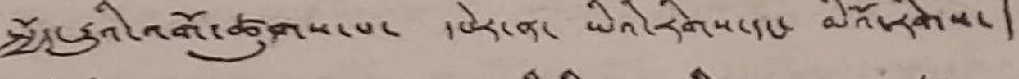སྤྱོད་རྒྱུའི་འགོ་ཚུགས་པ་ དཔེར་ན་ ཡིའི་རིགས་དང་ མིའོ་རིགས་།
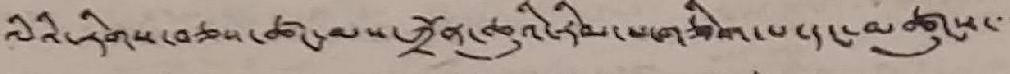ལིའི་རིགས་བཅས་ཚང་མས་ཀྲོན་ཆུའི་རིམ་པ་གཅིག་པ་དང་མཚུངས་་་
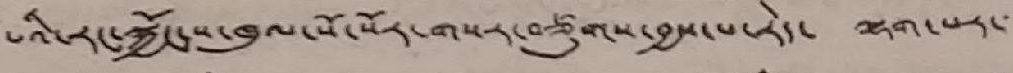པའི་རང་སྐྱོང་ས་ཁུལ་སོ་སོར་གསར་བཙུགས་བྱས་པ་རེད་ ལྷག་པར་་་
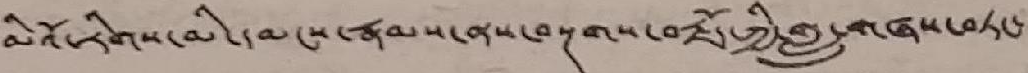མིའོ་རིགས་མི་དམངས་རྣམས་ནས་བསྔགས་བརྗོད་ཀྱི་གླུ་གཞས་བཏང་
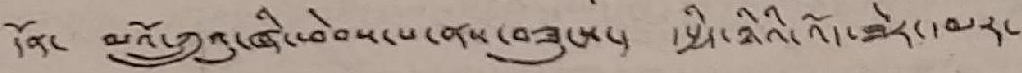དོན་ མའོ་ཀྲུའུ་ཞི་ཕེབས་པ་ནས་བཟུངས་། དཔྱིད་ཉིའི་འོད་ཟེར་དཔར་
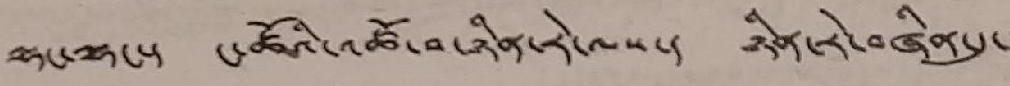ལྷང་ལྷང་། ང་ཚོའི་འཚོ་བ་ཉིན་རེ་ལས་། ཉིན་རེ་བཞིན་དུ་་
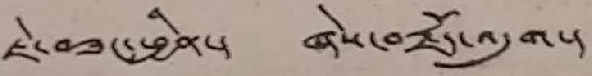ཇེ་བཟང་ཕྱིན་། ཞེས་བརྗོད་འདུག་།
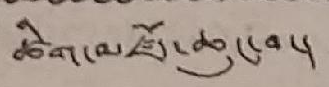ཚིག་མཛོད་ཆུང་བ་།
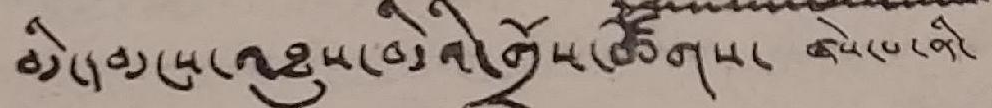མི་དམངས་འཐུས་མིའི་གྲོས་ཚོགས་ ཞེས་པ་ནི་
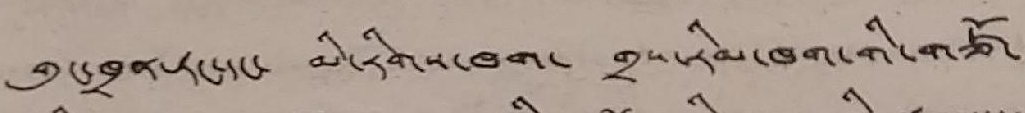གུང་ཁྲན་ཏང་དང་ མི་རིགས་ཁག་ གྲས་རིམ་ཁག་གི་གཙོ་
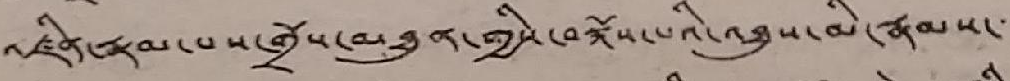འཛིན་རྣམ་པས་གྲོས་མཐུན་གྱིས་བསྐོས་པའི་འཐུས་མི་རྣམས་་་
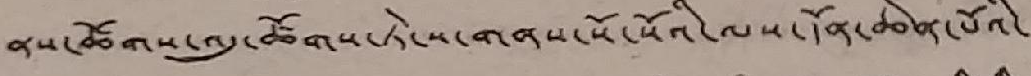ནས་ཚོགས་འདུ་ཚོགས་ཏེ་ས་གནས་སོ་སོའི་ལས་དོན་ཆེན་པོའི་
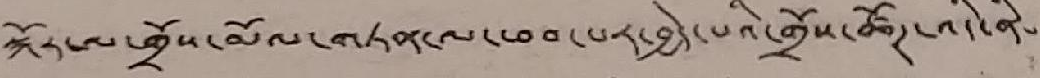སྐོར་ལ་གྲོས་མོལ་གཏན་ལ་ཕབ་པར་བྱེད་པའི་གྲོས་ཚོཊ་འདི་ནི་
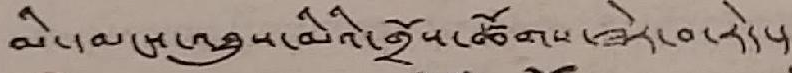མི་དམངས་འཐུས་མིའི་གྲོས་ཚོགས་ཟེར་བ་རེད་།
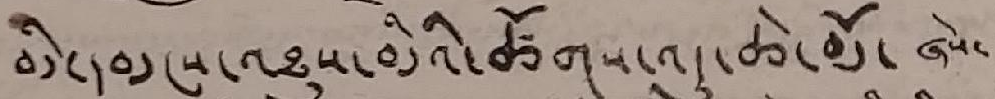མི་དམངས་འཐུས་མིའི་ཚོགས་འདུ་ཆེ་མོ་ཞེས་
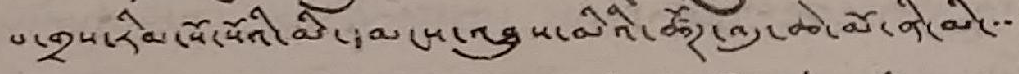པ་གྲས་རིམ་སོ་སོའི་མི་དམངས་འཐུས་མིའི་ཚོཊ་འདུ་ཆེ་མོ་ནི་མི་་་
